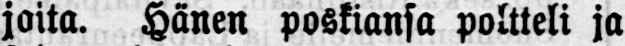joita. Hänen poskiansa poltteli ja
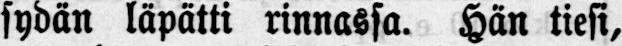sydän läpätti rinnassa. Hän tiesi,
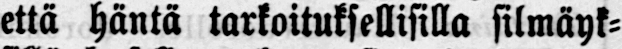että häntä tarkoituksellisilla silmäyk-
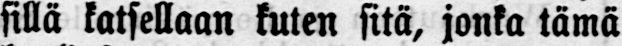sillä katsellaan kuten sitä, jonka tämä
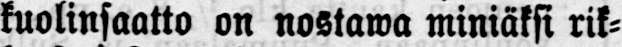kuolinsaatto on nostawa miniäksi rik-
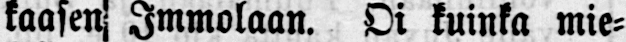kaasen Immolaan. Oi kuinka mie-
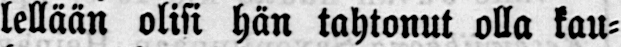lellään olisi hän tahtonut olla kau-
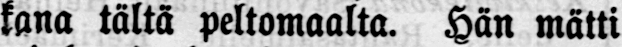kana tältä peltomaalta. Hän mätti
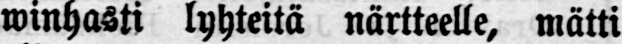winhasti lyhteitä närtteelle, mätti
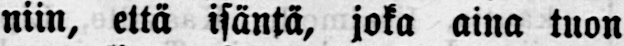niin, että isäntä, joka aina tuon
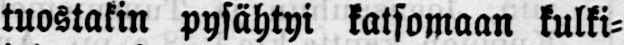tuostakin pysähtyi katsomaan kulki-
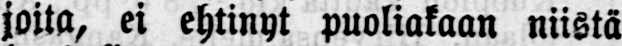joita, ei ehtinyt puoliakaan niistä
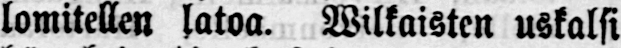lomitellen latoa. Wilkaisten uskalsi
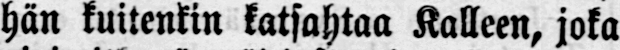hän kuitenkin katsahtaa Kalleen, joka
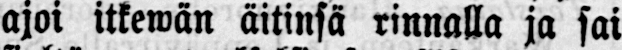ajoi itkewän äitinsä rinnalla ja sai
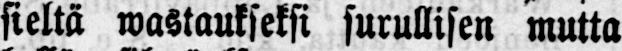sieltä wastaukseksi surullisen mutta
